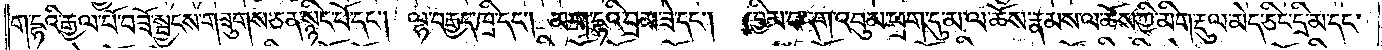ག་དྷའི་རྒྱལ་པོ་བཟོ་སྦྱངས་གཟུགས་ཅན་སྙིང་པོ་དང༌། ལྷ་བརྒྱད་ཁྲི་དང༌། མ་ག་དྷའི་བྲམ་ཟེ་དང༌། ཁྱིམ་བདག་འབུམ་ཕྲག་དུ་མ་ལ་ཆོས་རྣམས་ལ་ཆོས་ཀྱི་མིག་རྡུལ་མེད་ཅིང་དྲི་མ་དང་
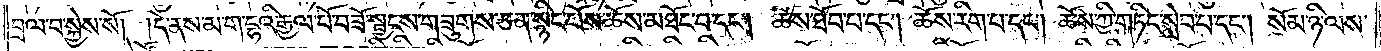བྲལ་བ་སྐྱེས་སོ། །དེ་ནས་མ་ག་དྷའི་རྒྱལ་པོ་བཟོ་སྦྱངས་གཟུགས་ཅན་སྙིང་པོས་ཆོས་མཐོང་བ་དང༌། ཆོས་ཐོབ་པ་དང༌། ཆོས་རིག་པ་དང༌། ཆོས་ཀྱི་གཏིང་སླེབ་པ་དང༌། སོམ་ཉི་ལས་
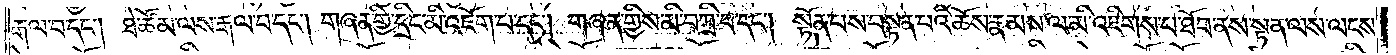རྒལ་བ་དང༌། ཐེ་ཚོམ་ལས་རྒལ་བ་དང༌། གཞན་གྱི་དྲིང་མི་འཇོག་པ་དང༌། གཞན་གྱིས་མི་བཀྲི་བ་དང༌། སྟོན་པས་བསྟན་པའི་ཆོས་རྣམས་ལ་མི་འཇིགས་པ་ཐོབ་ནས་སྟན་ལས་ལངས་
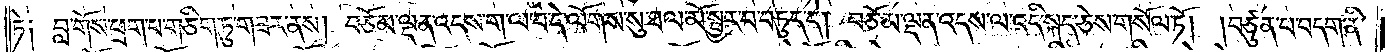ཏེ༑ བླ་གོས་ཕྲག་པ་གཅིག་ཏུ་གཟར་ནས། བཅོམ་ལྡན་འདས་ག་ལ་བ་དེ་ལོགས་སུ་ཐལ་མོ་སྦྱར་བ་བཏུད་དེ། བཅོམ་ལྡན་འདས་ལ་འདི་སྐད་ཅེས་གསོལ་ཏོ། །བཙུན་པ་བདག་ནི་
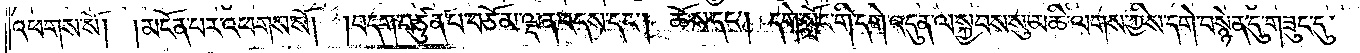འཕགས་སོ། །མངོན་པར་འཕགས་སོ། །བདག་བཙུན་པ་བཅོམ་ལྡན་འདས་དང༌། ཆོས་དང༌། དགེ་སློང་གི་དགེ་འདུན་ལ་སྐྱབས་སུ་མཆི་ལགས་ཀྱིས་དགེ་བསྙེན་དུ་གཟུང་དུ་
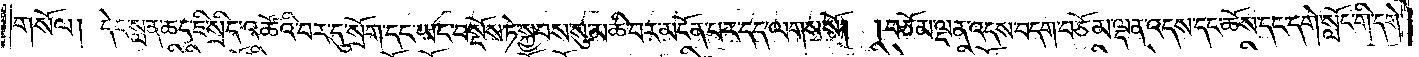གསོལ། དེང་སླན་ཆད་ཇི་སྲིད་འཚོའི་བར་དུ་སྲོག་དང་ཡང་བསྔོས་ཏེ་སྐྱབས་སུ་མཆི་བར་མངོན་པར་དད་ལགས་སོ། །བཅོམ་ལྡན་འདས་བདག་བཅོམ་ལྡན་འདས་དང་ཆོས་དང་དགེ་སློང་གི་དགེ་
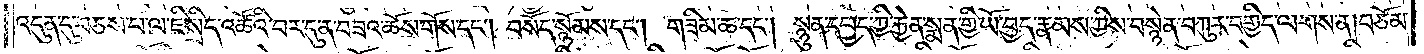འདུན་དུ་བཅས་པ་ལ་ཇི་སྲིད་འཚོའི་བར་དུ་ན་བཟའ་ཆོས་གོས་དང༌། བསོད་སྙོམས་དང༌། གཟིམ་ཆ་དང༌། སྙུན་དཔྱད་ཀྱི་རྐྱེན་སྨན་གྱི་ཡོ་བྱད་རྣམས་ཀྱིས་བསྙེན་བཀུར་བགྱིད་ལགས་ན། བཅོམ་
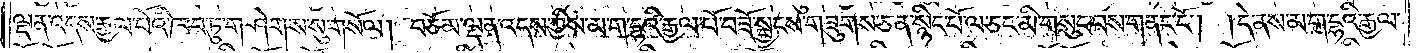ལྡན་འདས་རྒྱལ་པོའི་ཁབ་ཏུ་གཤེགས་སུ་གསོལ། བཅོམ་ལྡན་འདས་ཀྱིས་མ་ག་དྷའི་རྒྱལ་པོ་བཟོ་སྦྱངས་གཟུགས་ཅན་སྙིང་པོ་ལ་ཅང་མི་གསུང་བས་གནང་ངོ༌། །དེ་ནས་མ་ག་དྷའི་རྒྱལ་
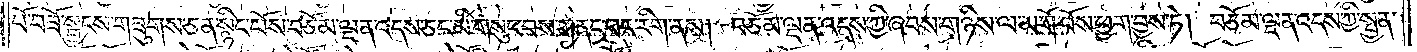པོ་བཟོ་སྦྱངས་གཟུགས་ཅན་སྙིང་པོས་བཅོམ་ལྡན་འདས་ཅང་མི་གསུང་བས་གནང་བར་རིག་ནས། བཅོམ་ལྡན་འདས་ཀྱི་ཞབས་གཉིས་ལ་མགོ་བོས་ཕྱག་བྱས་ཏེ། བཅོམ་ལྡན་འདས་ཀྱི་སྤྱན་
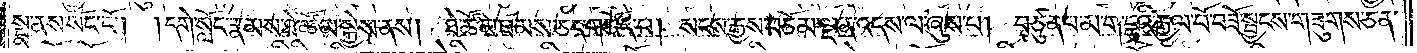སྔ་ནས་སོང་ངོ༌། །དགེ་སློང་རྣམས་ཐེ་ཚོམ་སྐྱེས་ནས། ཐེ་ཚོམ་ཐམས་ཅད་གཅོད་པ། སངས་རྒྱས་བཅོམ་ལྡན་འདས་ལ་ཞུས་པ། བཙུན་པ་མ་ག་དྷའི་རྒྱལ་པོ་བཟོ་སྦྱངས་གཟུགས་ཅན་
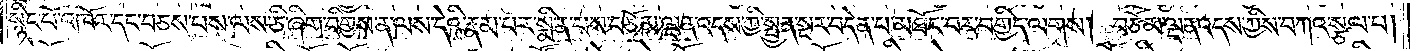སྙིང་པོ་འཁོར་དང་བཅས་པས་ལས་ཅི་ཞིག་བགྱིས་ན་ལས་དེའི་རྣམ་པར་སྨིན་པས་བཅོམ་ལྡན་འདས་ཀྱི་སྤྱན་སྔར་བདེན་པ་མཐོང་བར་བགྱིད་ལགས། བཅོམ་ལྡན་འདས་ཀྱིས་བཀའ་སྩལ་པ།
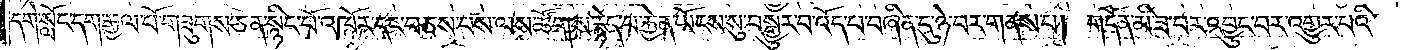དགེ་སློང་དག་རྒྱལ་པོ་གཟུགས་ཅན་སྙིང་པོ་འཁོར་དང་བཅས་པས་ལས་ཚོགས་རྙེད་པ་རྐྱེན་ཡོངས་སུ་བསྒྱུར་བ་འོད་པ་བཞིན་དུ་ཉེ་བར་གནས་པ། གདོན་མི་ཟ་བར་འབྱུང་བར་འགྱུར་པའི་
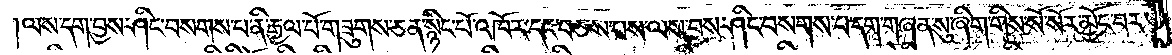ལས་དག་བྱས་ཤིང་བསགས་པ་ནི་རྒྱལ་པོ་གཟུགས་ཅན་སྙིང་པོ་འཁོར་དང་བཅས་པས་ལས་བྱས་ཤིང་བསགས་པ་དག་གཞན་སུ་ཞིག་གིས་སོ་སོར་མྱོང་བར་
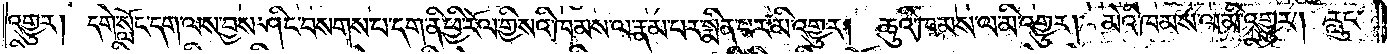འགྱུར། དགེ་སློང་དག་ལས་བྱས་ཤིང་བསགས་པ་དག་ནི་ཕྱི་རོལ་གྱི་སའི་ཁམས་ལ་རྣམ་པར་སྨིན་པར་མི་འགྱུར། ཆུའི་ཁམས་ལ་མི་འགྱུར། མེའི་ཁམས་ལ་མི་འགྱུར། རླུང་
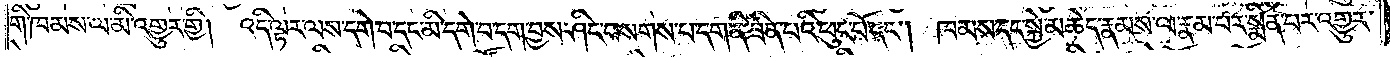གི་ཁམས་ལ་མི་འགྱུར་གྱི། འདི་ལྟར་ལས་དགེ་བ་དང་མི་དགེ་བ་དག་བྱས་ཤིང་བསགས་པ་དག་ནི་ཟིན་པའི་ཕུང་པོ་དང༌། ཁམས་དང་སྐྱེ་མཆེད་རྣམས་ལ་རྣམ་པར་སྨིན་པར་འགྱུར་
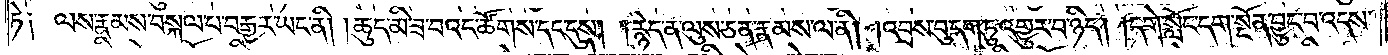ཏེ༑ ལས་རྣམས་བསྐལ་པ་བརྒྱར་ཡང་ནི། །ཆུད་མི་ཟ་བའང་ཚོགས་དང་དུས། །རྙེད་ན་ལུས་ཅན་རྣམས་ལ་ནི། །འབྲས་བུ་དག་ཏུ་འགྱུར་བ་ཉིད། །དགེ་སློང་དག་སྔོན་བྱུང་བ་འདས་
